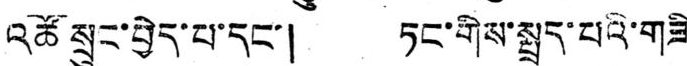འཚོ སྲུང་བྱེད་པ་དང་། ཏང་གིས་སྤྲད་པའི་གཟི་
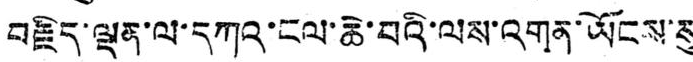བརྗིད་ལྡན་ལ་དཀའ་ངལ་ཆེ་བའི་ལས་འགན་ཡོངས་སུ
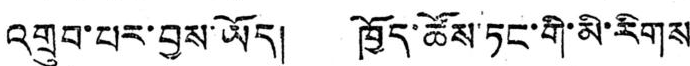འགྲུབ་པར་བྱས་ཡོད། ཁྱོད་ཚོས་ཏང་གི་མི་རིགས་
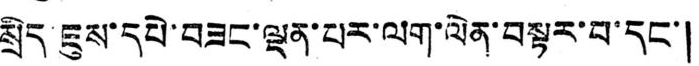སྲིད་ཇུས་དཔེ་བཟང་ལྡན་པར་ལག་ལེན་བསྟར་བ་དང་།
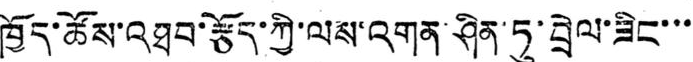ཁྱོད་ཚོས་འཐབ་རྩོད་ཀྱི་ལས་འགན་ཤིན་ཏུ་བྲེལ་ཟིང་་་
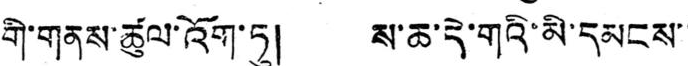གི་གནས་ཚུལ་འོག་ཏུ། ས་ཆ་དེ་གའི་མི་དམངས་་
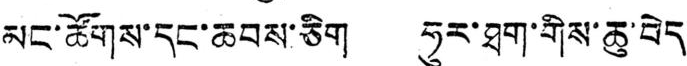མང་ཚོགས་དང་ཆབས་ཅིག ཧུར་ཐག་གིས་ཆུ་བེད་
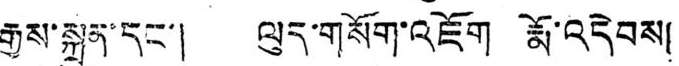རྒྱས་སྐྲུན་དང་། ལུད་གསོག་འཇོག རྨོ་འདེབས།
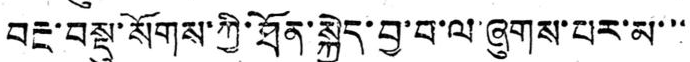བརྔ་བསྡུ་སོགས་ཀྱི་ཐོན་སྐྱེད་བྱ་བ་ལ་ཞུགས་པར་མ་་་་
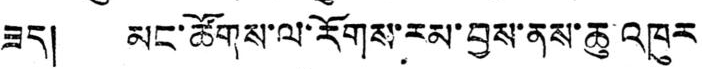ཟད། མང་ཚོགས་ལ་རོགས་རམ་བྱས་ནས་ཆུ་འཁུར
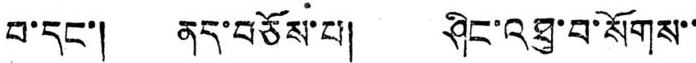བ་དང་། ནད་བཅོས་པ། ཤིང་འཐུ་བ་སོགས་་
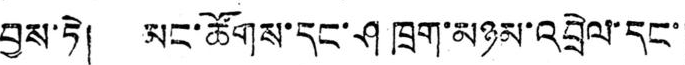བྱས་ཏེ། མང་ཚོགས་དང་ཤ ཁྲག་མཉམ་འབྲེལ་དང་།
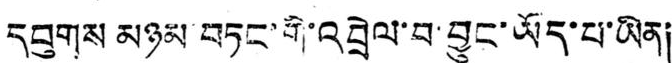དབུགས མཉམ་བཏང་གི་འབྲེལ་བ་བྱུང་ཡོད་པ་ཡིན།
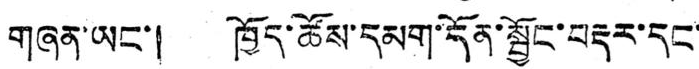གཞན་ཡང་། ཁྱོད་ཚོས་དམག་དོན་སྦྱོང་བརྡར་དང་
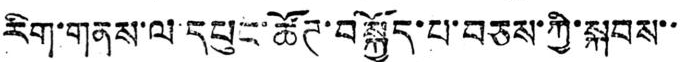རིག་གནས་ལ་དཔུང་ཚོཊ་བསྐྱོད་པ་བཅས་ཀྱི་སྐབས་་་་
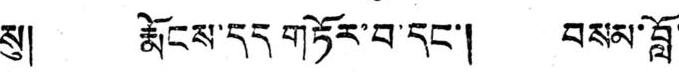སུ། རྨོངས་དད གཏོར་བ་དང་། བསམ་བློ་་
